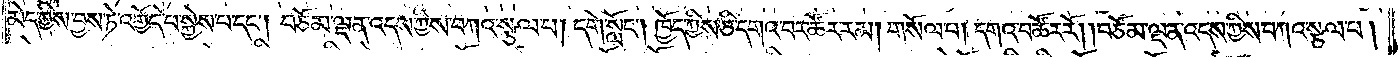མེད་ཀྱིས་བྱས་ཏེ་འགྱོད་པ་སྐྱེས་པ་དང༌། བཅོམ་ལྡན་འདས་ཀྱིས་བཀའ་སྩལ་པ། དགེ་སློང༌། ཁྱོད་ཀྱིས་ཅི་དགའ་བར་ཚོར་རམ། གསོལ་པ། དགའ་བ་ཚོར་རོ། །བཅོམ་ལྡན་འདས་ཀྱིས་བཀའ་སྩལ་པ།
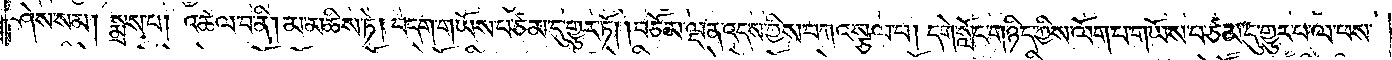ཤེས་སམ། སྨྲས་པ། འཚལ་བ་ནི། མ་མཆིས་ཏེ། བདག་གཡོས་པ་ཙམ་དུ་གྱུར་ཏོ། །བཅོམ་ལྡན་འདས་ཀྱིས་བཀའ་སྩལ་པ། དགེ་སློང་གཉིད་ཀྱིས་ལོག་པ་གཡོས་པ་ཙམ་དུ་གྱུར་པ་ལ་ཕས་
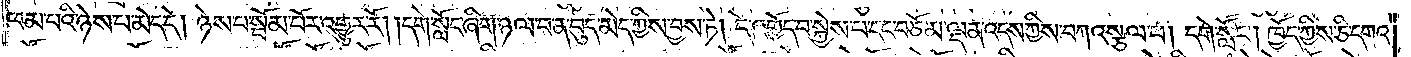ཕམ་པའི་ཉེས་པ་མེད་དེ། ཉེས་པ་སྦོམ་པོར་འགྱུར་རོ། །དགེ་སློང་ཞིག་ཉལ་བ་ན་བུད་མེད་ཀྱིས་བྱས་ཏེ། དེ་འགྱོད་པ་སྐྱེས་པ་དང་བཅོམ་ལྡན་འདས་ཀྱིས་བཀའ་སྩལ་པ། དགེ་སློང༌། ཁྱོད་ཀྱིས་ཅི་དགའ་
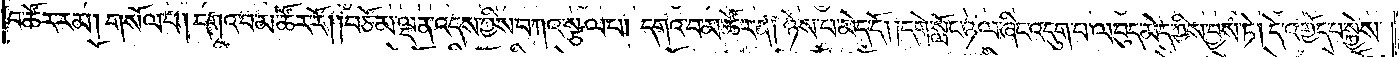བ་ཚོར་རམ། གསོལ་པ། དགའ་བ་མ་ཚོར་རོ། །བཅོམ་ལྡན་འདས་ཀྱིས་བཀའ་སྩལ་པ། དགའ་བ་མ་ཚོར་ན། ཉེས་པ་མེད་དོ། །དགེ་སློང་ཉལ་ཞིང་འདུག་པ་ལ་བུད་མེད་ཀྱིས་བྱས་ཏེ། དེ་འགྱོད་པ་སྐྱེས་
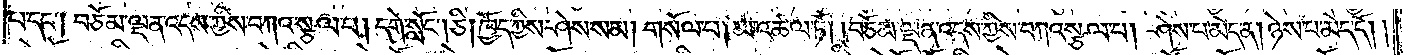པ་དང༌། བཅོམ་ལྡན་འདས་ཀྱིས་བཀའ་སྩལ་པ། དགེ་སློང༌། ཅི། ཁྱོད་ཀྱིས་ཤེས་སམ། གསོལ་པ། མ་འཚོལ་ཏོ། །བཅོམ་ལྡན་འདས་ཀྱིས་བཀའ་སྩལ་པ། ཤེས་པ་མེད་ན། ཉེས་པ་མེད་དོ། །
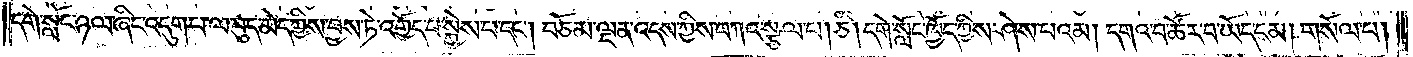དགེ་སློང་ཉལ་ཞིང་འདུག་པ་ལ་བུད་མེད་ཀྱིས་བྱས་ཏེ་འགྱོད་པ་སྐྱེས་པ་དང༌། བཅོམ་ལྡན་འདས་ཀྱིས་བཀའ་སྩལ་པ། ཅི། དགེ་སློང་ཁྱོད་ཀྱིས་ཤེས་པའམ། དགའ་བ་ཚོར་བ་ཡོད་དམ། གསོལ་པ།
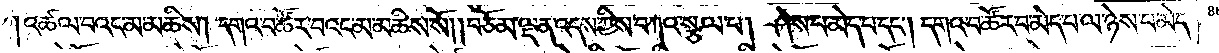འཚལ་བའང་མ་མཆིས། དགའ་བ་ཚོར་བའང་མ་མཆིས་སོ། །བཅོམ་ལྡན་འདས་ཀྱིས་བཀའ་སྩལ་པ། ཤེས་པ་མེད་པ་དང༌། དགའ་བ་ཚོར་བ་མེད་པ་ལ་ཉེས་པ་མེད་
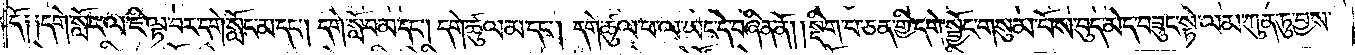དོ༑ ༑དགེ་སློང་ལ་ཇི་ལྟ་བར་དགེ་སློང་མ་དང༌། དགེ་སློབ་མ་དང༌། དགེ་ཚུལ་མ་དང༌། དགེ་ཚུལ་ཕ་ལ་ཡང་དེ་བཞིན་ནོ། །སྡིག་པ་ཅན་གྱི་དགེ་སྦྱོང་གསུམ་པོས་བུད་མེད་བཟུང་སྟེ་ལམ་ཀུན་ཏུ་བྱས་
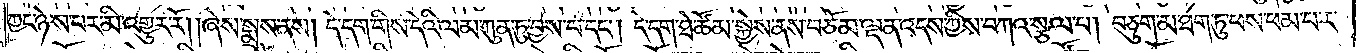ཀྱང་ཉེས་པར་མི་འགྱུར་རོ། །ཞེས་སྨྲས་ནས། དེ་དག་གིས་དེའི་ལམ་ཀུན་ཏུ་བྱས་པ་དང༌། དེ་དག་ཐེ་ཚོམ་སྐྱེས་ནས་བཅོམ་ལྡན་འདས་ཀྱིས་བཀའ་སྩལ་པ། བཅུག་མ་ཐག་ཏུ་ཕས་ཕམ་པར་
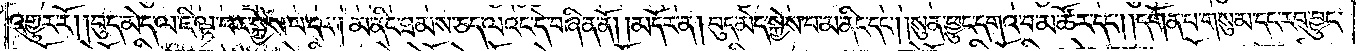འགྱུར་རོ། །བུད་མེད་ལ་ཇི་ལྟ་བར་སྐྱེས་པ་དང༌། མ་ནིང་ཐམས་ཅད་ལའང་དེ་བཞིན་ནོ། །མདོར་ན། བུད་མེད་སྐྱེས་པ་མ་ནིང་དང༌། །སུན་ཕྱུང་དགའ་བ་མ་ཚོར་དང༌། །དགོན་པ་གསུམ་དང་རབ་བྱུང་
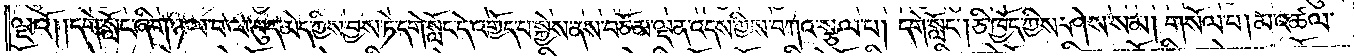ལྔའོ། །དགེ་སློང་ཞིག་ཉལ་བ་ལ་བུད་མེད་ཀྱིས་བྱས་ཏེ་དགེ་སློང་དེ་འགྱོད་པ་སྐྱེས་ནས་བཅོམ་ལྡན་འདས་ཀྱིས་བཀའ་སྩལ་པ། དགེ་སློང༌། ཅི་ཁྱོད་ཀྱིས་ཤེས་སམ། གསོལ་པ། མ་འཚལ་
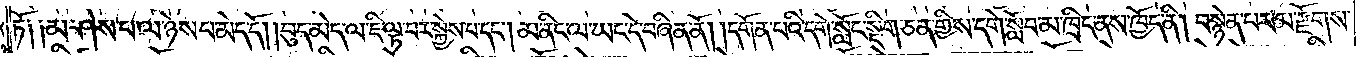ཏོ༑ ༑མ་ཤེས་པ་ལ་ཉེས་པ་མེད་དོ། །བུད་མེད་ལ་ཇི་ལྟ་བར་སྐྱེས་པ་དང༌། མ་ནིང་ལ་ཡང་དེ་བཞིན་ནོ། །དགོན་པའི་དགེ་སློང་སྡིག་ཅན་གྱིས་དགེ་སློབ་མ་ཁྲིད་ནས་ཁྱོད་ནི། བསྙེན་པར་མ་རྫོགས་
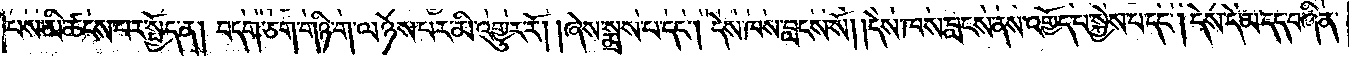པས་མི་ཚངས་པར་སྤྱོད་ན། བདག་ཅག་གཉི་ག་ལ་ཉེས་པར་མི་འགྱུར་རོ། །ཞེས་སྨྲས་པ་དང༌། དེས་ཁས་བླངས་སོ། །དེས་ཁས་བླངས་ནས་འགྱོད་པ་སྐྱེས་པ་དང༌། དེས་དེ་མ་དད་བཞིན་
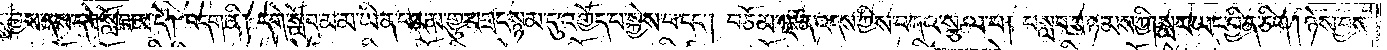དུ་བྱས་ནས་དགེ་སློབ་མ་དེ། བདག་ནི། དགེ་སློབ་མ་མ་ཡིན་པར་མ་གྱུར་གྲང་སྙམ་དུ་འགྱོད་པ་སྐྱེས་པ་དང༌། བཅོམ་ལྡན་འདས་ཀྱིས་བཀའ་སྩལ་པ། བསླབ་པ་ཉམས་ཀྱི། སླར་ཡང་བྱིན་ཅིག །ཉེས་བྱས་
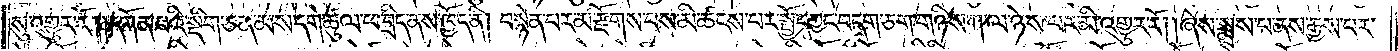སུ་འགྱུར་རོ། །དགོན་པའི་སྡིག་ཅན་མས་དགེ་ཚུལ་ཕ་བྲིད་ནས་ཁྱོད་ནི། བསྙེན་པར་མ་རྫོགས་པས་མི་ཚངས་པར་སྤྱོད་ཀྱང་བདག་ཅག་གཉིས་ཀ་ལ་ཉེས་པར་མི་འགྱུར་རོ། །ཞེས་སྨྲས་པ་ནས་རྒྱས་པར་
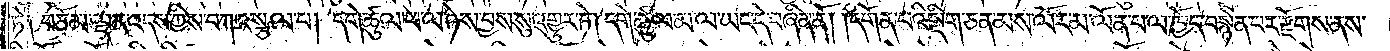ཏེ༑ བཅོམ་ལྡན་འདས་ཀྱིས་བཀའ་སྩལ་པ། དགེ་ཚུལ་ཕ་ལ་ཉེས་བྱས་སུ་འགྱུར་ཏེ། དགེ་ཚུལ་མ་ལ་ཡང་དེ་བཞིན་ནོ། །དགོན་པའི་སྡིག་ཅན་མས་ལོར་མ་ལོན་པ་ལ་ཁྱོད་བསྙེན་པར་རྫོགས་ནས་
